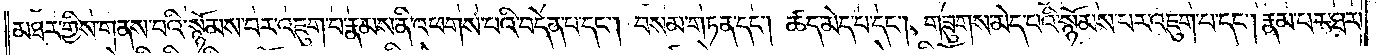མཐར་གྱིས་གནས་པའི་སྙོམས་པར་འཇུག་པ་རྣམས་ནི་འཕགས་པའི་བདེན་པ་དང༌། བསམ་གཏན་དང༌། ཚད་མེད་པ་དང༌། གཟུགས་མེད་པའི་སྙོམས་པར་འཇུག་པ་དང༌། རྣམ་པར་ཐར་
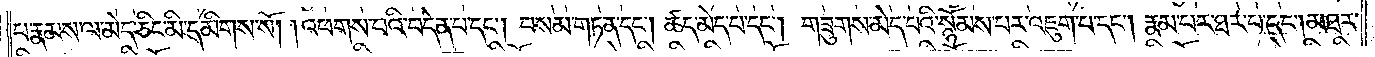པ་རྣམས་ལ་མེད་ཅིང་མི་དམིགས་སོ། །འཕགས་པའི་བདེན་པ་དང༌། བསམ་གཏན་དང༌། ཚད་མེད་པ་དང༌། གཟུགས་མེད་པའི་སྙོམས་པར་འཇུག་པ་དང༌། རྣམ་པར་ཐར་པ་དང༌། མཐར་
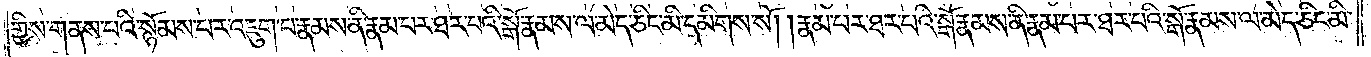གྱིས་གནས་པའི་སྙོམས་པར་འཇུག་པ་རྣམས་ནི་རྣམ་པར་ཐར་པའི་སྒོ་རྣམས་ལ་མེད་ཅིང་མི་དམིགས་སོ། །རྣམ་པར་ཐར་པའི་སྒོ་རྣམས་ནི་རྣམ་པར་ཐར་པའི་སྒོ་རྣམས་ལ་མེད་ཅིང་མི་
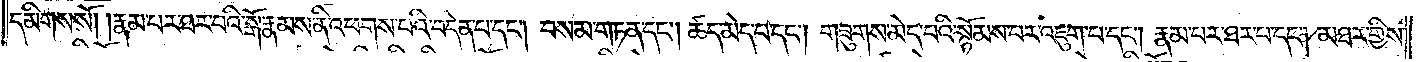དམིགས་སོ། །རྣམ་པར་ཐར་པའི་སྒོ་རྣམས་ནི་འཕགས་པའི་བདེན་པ་དང༌། བསམ་གཏན་དང༌། ཚད་མེད་པ་དང༌། གཟུགས་མེད་པའི་སྙོམས་པར་འཇུག་པ་དང༌། རྣམ་པར་ཐར་པ་དང༌། མཐར་གྱིས་
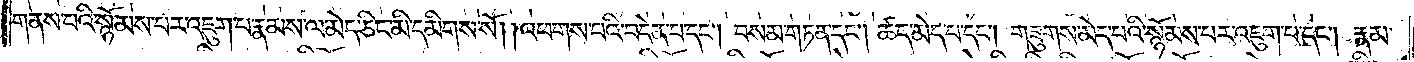གནས་པའི་སྙོམས་པར་འཇུག་པ་རྣམས་ལ་མེད་ཅིང་མི་དམིགས་སོ། འཕགས་པའི་བདེན་པ་དང༌། བསམ་གཏན་དང༌། ཚད་མེད་པ་དང༌། གཟུགས་མེད་པའི་སྙོམས་པར་འཇུག་པ་དང༌། རྣམ་
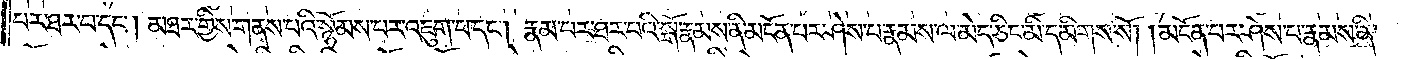པར་ཐར་པ་དང༌། མཐར་གྱིས་གནས་པའི་སྙོམས་པར་འཇུག་པ་དང༌། རྣམ་པར་ཐར་པའི་སྒོ་རྣམས་ནི་མངོན་པར་ཤེས་པ་རྣམས་ལ་མེད་ཅིང་མི་དམིགས་སོ། །མངོན་པར་ཤེས་པ་རྣམས་ནི་
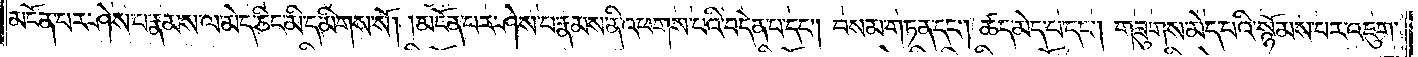མངོན་པར་ཤེས་པ་རྣམས་ལ་མེད་ཅིང་མི་དམིགས་སོ། །མངོན་པར་ཤེས་པ་རྣམས་ནི་འཕགས་པའི་བདེན་པ་དང༌། བསམ་གཏན་དང༌། ཚད་མེད་པ་དང༌། གཟུགས་མེད་པའི་སྙོམས་པར་འཇུག་
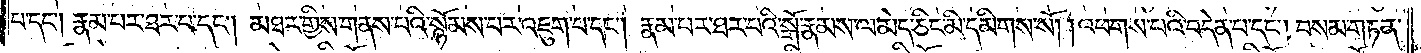པ་དང༌། རྣམ་པར་ཐར་པ་དང༌། མཐར་གྱིས་གནས་པའི་སྙོམས་པར་འཇུག་པ་དང༌། རྣམ་པར་ཐར་པའི་སྒོ་རྣམས་ལ་མེད་ཅིང་མི་དམིགས་སོ། །འཕགས་པའི་བདེན་པ་དང༌། བསམ་གཏན་
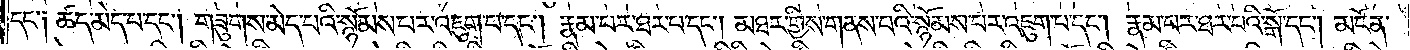དང༌། ཚད་མེད་པ་དང༌། གཟུགས་མེད་པའི་སྙོམས་པར་འཇུག་པ་དང༌། རྣམ་པར་ཐར་པ་དང༌། མཐར་གྱིས་གནས་པའི་སྙོམས་པར་འཇུག་པ་དང༌། རྣམ་པར་ཐར་པའི་སྒོ་དང༌། མངོན་
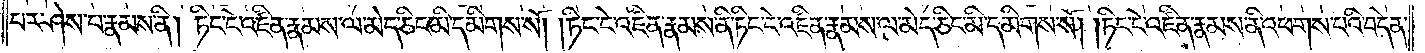པར་ཤེས་པ་རྣམས་ནི། ཏིང་ངེ་འཛིན་རྣམས་ལ་མེད་ཅིང་མི་དམིགས་སོ། །ཏིང་ངེ་འཛིན་རྣམས་ནི་ཏིང་ངེ་འཛིན་རྣམས་ལ་མེད་ཅིང་མི་དམིགས་སོ། །ཏིང་ངེ་འཛིན་རྣམས་ནི་འཕགས་པའི་བདེན་
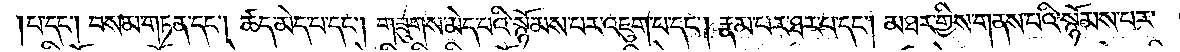པ་དང༌། བསམ་གཏན་དང༌། ཚད་མེད་པ་དང༌། གཟུགས་མེད་པའི་སྙོམས་པར་འཇུག་པ་དང༌། རྣམ་པར་ཐར་པ་དང༌། མཐར་གྱིས་གནས་པའི་སྙོམས་པར་
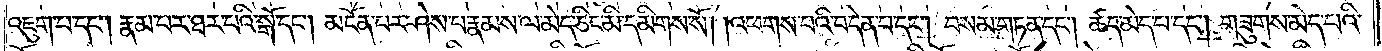འཇུག་པ་དང༌། རྣམ་པར་ཐར་པའི་སྒོ་དང༌། མངོན་པར་ཤེས་པ་རྣམས་ལ་མེད་ཅིང་མི་དམིགས་སོ། །འཕགས་པའི་བདེན་པ་དང༌། བསམ་གཏན་དང༌། ཚད་མེད་པ་དང༌། གཟུགས་མེད་པའི་
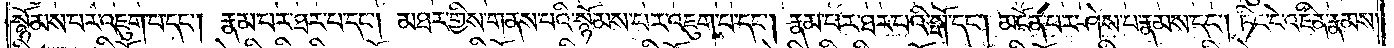སྙོམས་པར་འཇུག་པ་དང༌། རྣམ་པར་ཐར་པ་དང༌། མཐར་གྱིས་གནས་པའི་སྙོམས་པར་འཇུག་པ་དང༌། རྣམ་པར་ཐར་པའི་སྒོ་དང༌། མངོན་པར་ཤེས་པ་རྣམས་དང༌། ཏིང་ངེ་འཛིན་རྣམས་
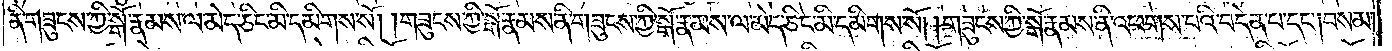ནི་གཟུངས་ཀྱི་སྒོ་རྣམས་ལ་མེད་ཅིང་མི་དམིགས་སོ། །གཟུངས་ཀྱི་སྒོ་རྣམས་ནི་གཟུངས་ཀྱི་སྒོ་རྣམས་ལ་མེད་ཅིང་མི་དམིགས་སོ། །གཟུངས་ཀྱི་སྒོ་རྣམས་ནི་འཕགས་པའི་བདེན་པ་དང༌། །བསམ་
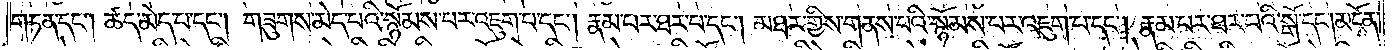གཏན་དང༌། ཚད་མེད་པ་དང༌། གཟུགས་མེད་པའི་སྙོམས་པར་འཇུག་པ་དང༌། རྣམ་པར་ཐར་པ་དང༌། མཐར་གྱིས་གནས་པའི་སྙོམས་པར་འཇུག་པ་དང༌། རྣམ་པར་ཐར་པའི་སྒོ་དང༌། མངོན་
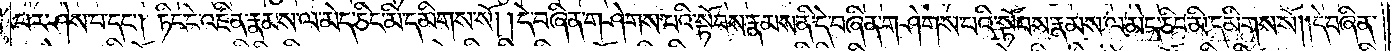པར་ཤེས་པ་དང༌། ཏིང་ངེ་འཛིན་རྣམས་ལ་མེད་ཅིང་མི་དམིགས་སོ། །དེ་བཞིན་གཤེགས་པའི་སྟོབས་རྣམས་ནི་དེ་བཞིན་གཤེགས་པའི་སྟོབས་རྣམས་ལ་མེད་ཅིང་མི་དམིགས་སོ། །དེ་བཞིན་
